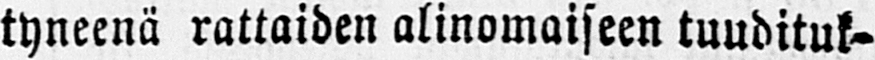tyneenä rattaiden alinomaiseen tuuditut-
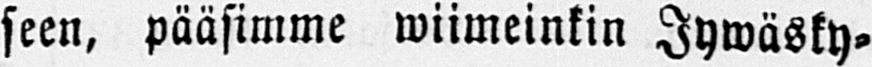seen, pääsimme wiimeinkin Jywäsky-
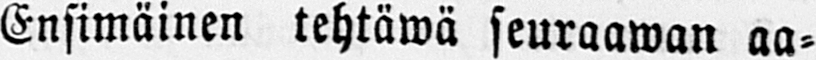Ensimäinen tehtäwä seuraawan aa-
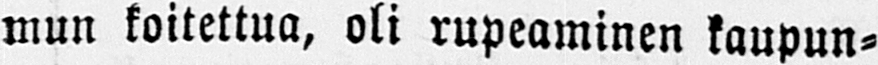mun koitettua, oli rupeaminen kaupun-
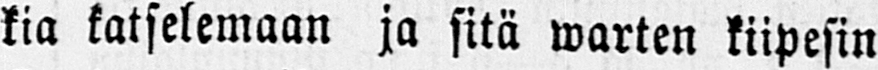kia katselemaan ja sitä warten kiipesin
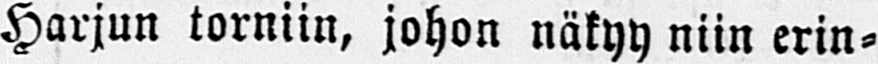Harjun torniin, johon näkyy niin erin-
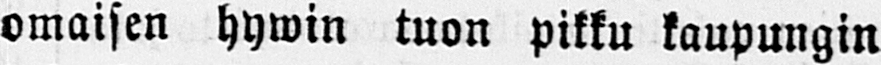omaisen hywin tuon pikku kaupungin
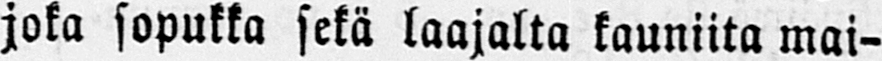joka sopukka sekä laajalta kauniita mai-
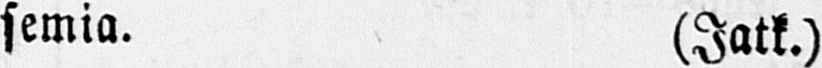semia. (Jatk.)
